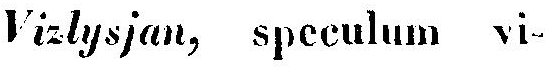Vialysjan, speculum vi-
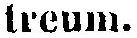treum.
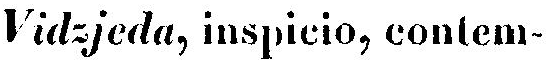Vidzjeda, inspicio, contem-
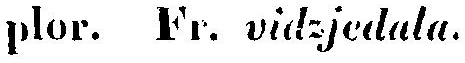plor. Fr. vidzjedala.
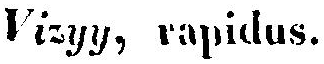Vizyy, rapidus.
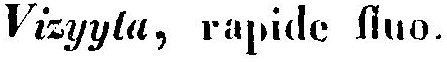Vizyyta, rapide fluo.
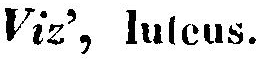Viz', lutcus.
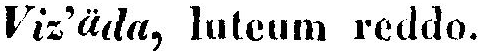Viz'äda, lutcum reddo.
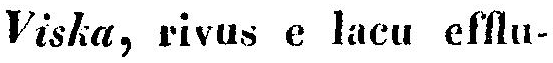Viska, rivus e lacu efflu-
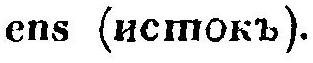ens (истокъ).
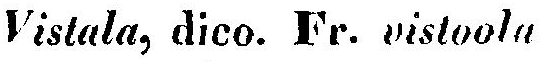Vistala, dico. Fr. vistoola
